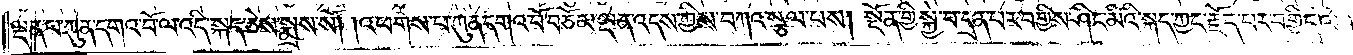ལྡན་པ་ཀུན་དགའ་བོ་ལ་འདི་སྐད་ཅེས་སྨྲས་སོ། །འཕགས་པ་ཀུན་དགའ་བོ་བཅོམ་ལྡན་འདས་ཀྱིས་བཀའ་སྩལ་པས། སྔོན་གྱི་སྐྱེ་བ་དྲན་པར་བགྱིས་ཤིང་མིའི་སྐད་ཀྱང་རྗོད་པར་བགྱིད་ལ།
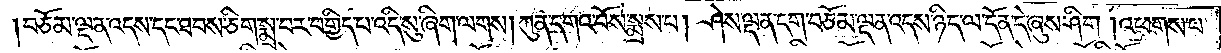བཅོམ་ལྡན་འདས་དང་ཐབས་ཅིག་སྨྲ་བར་བགྱིད་པ་འདི་སུ་ཞིག་ལགས། ཀུན་དགའ་བོས་སྨྲས་པ། ཤེས་ལྡན་ངག་བཅོམ་ལྡན་འདས་ཉིད་ལ་དོན་དེ་ཞུས་ཤིག །འཕགས་པ་
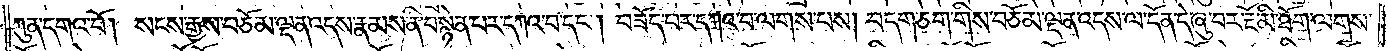ཀུན་དགའ་བོ། སངས་རྒྱས་བཅོམ་ལྡན་འདས་རྣམས་ནི་བསྙེན་པར་དཀའ་བ་དང༌། བཟོད་པར་དཀའ་བ་ལགས་པས། བདག་ཅག་གིས་བཅོམ་ལྡན་འདས་ལ་དོན་དེ་ཞུ་བར་རྔོ་མི་ཐོག་ལགས་
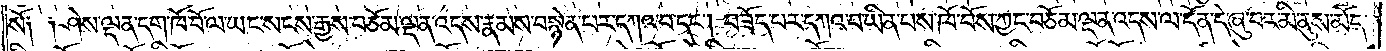སོ༑ ༑ཤེས་ལྡན་དག་ཁོ་བོ་ལ་ཡང་སངས་རྒྱས་བཅོམ་ལྡན་འདས་རྣམས་བསྙེན་པར་དཀའ་བ་དང༌། བཟོད་པར་དཀའ་བ་ཡིན་པས་ཁོ་བོས་ཀྱང་བཅོམ་ལྡན་འདས་ལ་དོན་དེ་ཞུ་བར་མི་ནུས་མོད་
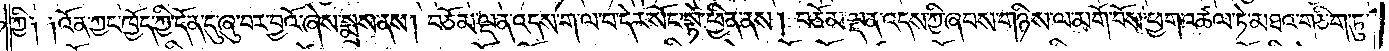ཀྱི༑ ༑འོན་ཀྱང་ཁྱོད་ཀྱི་དོན་དུ་ཞུ་བར་བྱའོ་ཞེས་སྨྲས་ནས། བཅོམ་ལྡན་འདས་ག་ལ་བ་དེར་སོང་སྟེ་ཕྱིན་ནས། བཅོམ་ལྡན་འདས་ཀྱི་ཞབས་གཉིས་ལ་མགོ་བོས་ཕྱག་འཚལ་ཏེ་མཐའ་གཅིག་ཏུ་
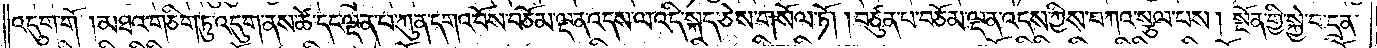འདུག་གོ །མཐའ་གཅིག་ཏུ་འདུག་ནས་ཚེ་དང་ལྡན་པ་ཀུན་དགའ་བོས་བཅོམ་ལྡན་འདས་ལ་འདི་སྐད་ཅེས་གསོལ་ཏོ། །བཙུན་པ་བཅོམ་ལྡན་འདས་ཀྱིས་བཀའ་སྩལ་པས། སྔོན་གྱི་སྐྱེ་བ་དྲན་
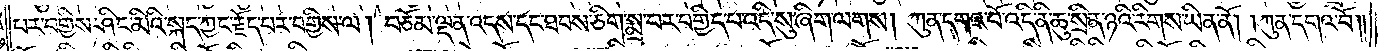པར་བགྱིས་ཤིང་མིའི་སྐད་ཀྱང་རྗོད་པར་བགྱིས་ལ། བཅོམ་ལྡན་འདས་དང་ཐབས་ཅིག་སྨྲ་བར་བགྱིད་པ་འདི་སུ་ཞིག་ལགས། ཀུན་དགའ་བོ་འདི་ནི་ཆུ་སྲིན་ཉའི་རིགས་ཡིན་ནོ། །ཀུན་དགའ་བོ༎
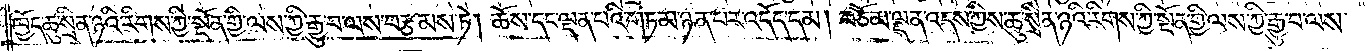ཁྱོད་ཆུ་སྲིན་ཉའི་རིགས་ཀྱི་སྔོན་གྱི་ལས་ཀྱི་རྒྱུ་བ་ལས་བརྩམས་ཏེ། ཆོས་དང་ལྡན་པའི་གཏམ་ཉན་པར་འདོད་དམ། བཅོམ་ལྡན་འདས་ཀྱིས་ཆུ་སྲིན་ཉའི་རིགས་ཀྱི་སྔོན་གྱི་ལས་ཀྱི་རྒྱུ་བ་ལས་
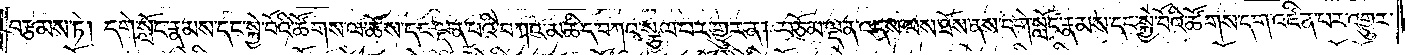བརྩམས་ཏེ། དགེ་སློང་རྣམས་དང་སྐྱེ་བོའི་ཚོགས་ལ་ཆོས་དང་ལྡན་པའི་བཀའ་མཆིད་བཀའ་སྩལ་པར་གྱུར་ན། བཅོམ་ལྡན་འདས་ལས་ཐོས་ནས་དགེ་སློང་རྣམས་དང་སྐྱེ་བོའི་ཚོགས་དག་འཛིན་པར་འགྱུར་
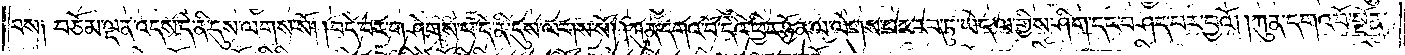བས༑ བཅོམ་ལྡན་འདས་དེ་ནི་དུས་ལགས་སོ། །བདེ་བར་གཤེགས་པ་དེ་ནི་དུས་ལགས་སོ། །ཀུན་དགའ་བོ་དེའི་ཕྱིར་ཉོན་ལ་ལེགས་པར་རབ་ཏུ་ཡིད་ལ་གྱིས་ཤིག་དང་བཤད་པར་བྱའོ། །ཀུན་དགའ་བོ་སྔོན་
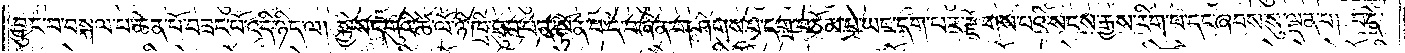བྱུང་བ་བསྐལ་པ་ཆེན་པོ་བཟང་པོ་འདི་ཉིད་ལ། སྐྱེས་དགུའི་ཚེ་ལོ་ཉི་ཁྲི་ཐུབ་པ་ན་སྟོན་པ་དེ་བཞིན་གཤེགས་པ་དགྲ་བཅོམ་པ་ཡང་དག་པར་རྫོགས་པའི་སངས་རྒྱས་རིག་པ་དང་ཞབས་སུ་ལྡན་པ། བདེ་
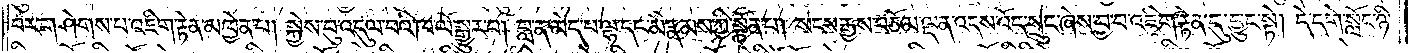བར་གཤེགས་པ་འཇིག་རྟེན་མཁྱེན་པ། སྐྱེས་བུ་འདུལ་བའི་ཁ་ལོ་སྒྱུར་བ། བླ་ན་མེད་པ་ལྷ་དང་མི་རྣམས་ཀྱི་སྟོན་པ། སངས་རྒྱས་བཅོམ་ལྡན་འདས་འོད་སྲུང་ཞེས་བྱ་བ་འཇིག་རྟེན་དུ་བྱུང་སྟེ། དེ་དགེ་སློང་ཉི་
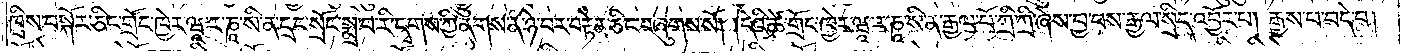ཁྲིས་བསྐོར་ཅིང་གྲོང་ཁྱེར་ཝཱ་ར་ཎཱ་སི་ན་དྲང་སྲོང་སྨྲ་བ་རི་དྭགས་ཀྱི་ནགས་ན་ཉེ་བར་བརྟེན་ཅིང་བཞུགས་སོ། །དེའི་ཚེ་གྲོང་ཁྱེར་ཝཱ་ར་ཎཱ་སི་ན་རྒྱལ་པོ་ཀྲི་ཀྲི་ཞེས་བྱ་བས་རྒྱལ་སྲིད་འབྱོར་པ། རྒྱས་པ་བདེ་བ།
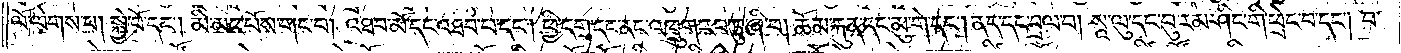ལོ་ལེགས་པ། སྐྱེ་བོ་དང༌། མི་མང་པོས་གང་བ། འཐབ་མོ་དང་འཐབ་པ་དང༌། ཕྱི་དགྲ་དང་ནང་འཁྲུག་རབ་ཏུ་ཞི་བ། ཆོམ་རྐུན་དང་མུ་གེ་དང༌། ནད་དང་བྲལ་བ། སཱ་ལུ་དང་བུ་རམ་ཤིང་གི་ཕྲེང་བ་དང༌། བ་
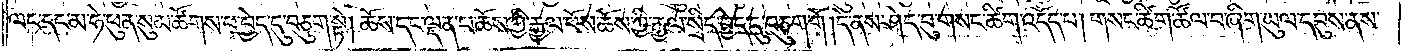ལང་དང་མ་ཧེ་ཕུན་སུམ་ཚོགས་པ་བྱེད་དུ་བཅུག་སྟེ། ཆོས་དང་ལྡན་པ་ཆོས་ཀྱི་རྒྱལ་པོས་ཆོས་ཀྱི་རྒྱལ་སྲིད་བྱེད་དུ་བཅུག་གོ །དེ་ནས་ཤེད་བུ་གསང་ཚིག་འདོད་པ། གསང་ཚིག་ཚོལ་བ་ཞིག་ཡུལ་དབུས་ནས་
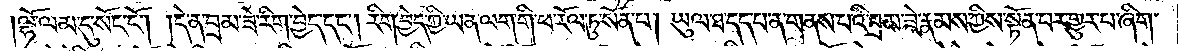ལྷོ་ལམ་དུ་སོང་ངོ༌། །དེ་ན་བྲམ་ཟེ་རིག་བྱེད་དང༌། རིག་བྱེད་ཀྱི་ཡན་ལག་གི་ཕ་རོལ་ཏུ་སོན་པ། ཡུལ་ཐ་དད་པ་ན་གནས་པའི་བྲམ་ཟེ་རྣམས་ཀྱིས་སྟོན་པར་གྱུར་པ་ཞིག་
